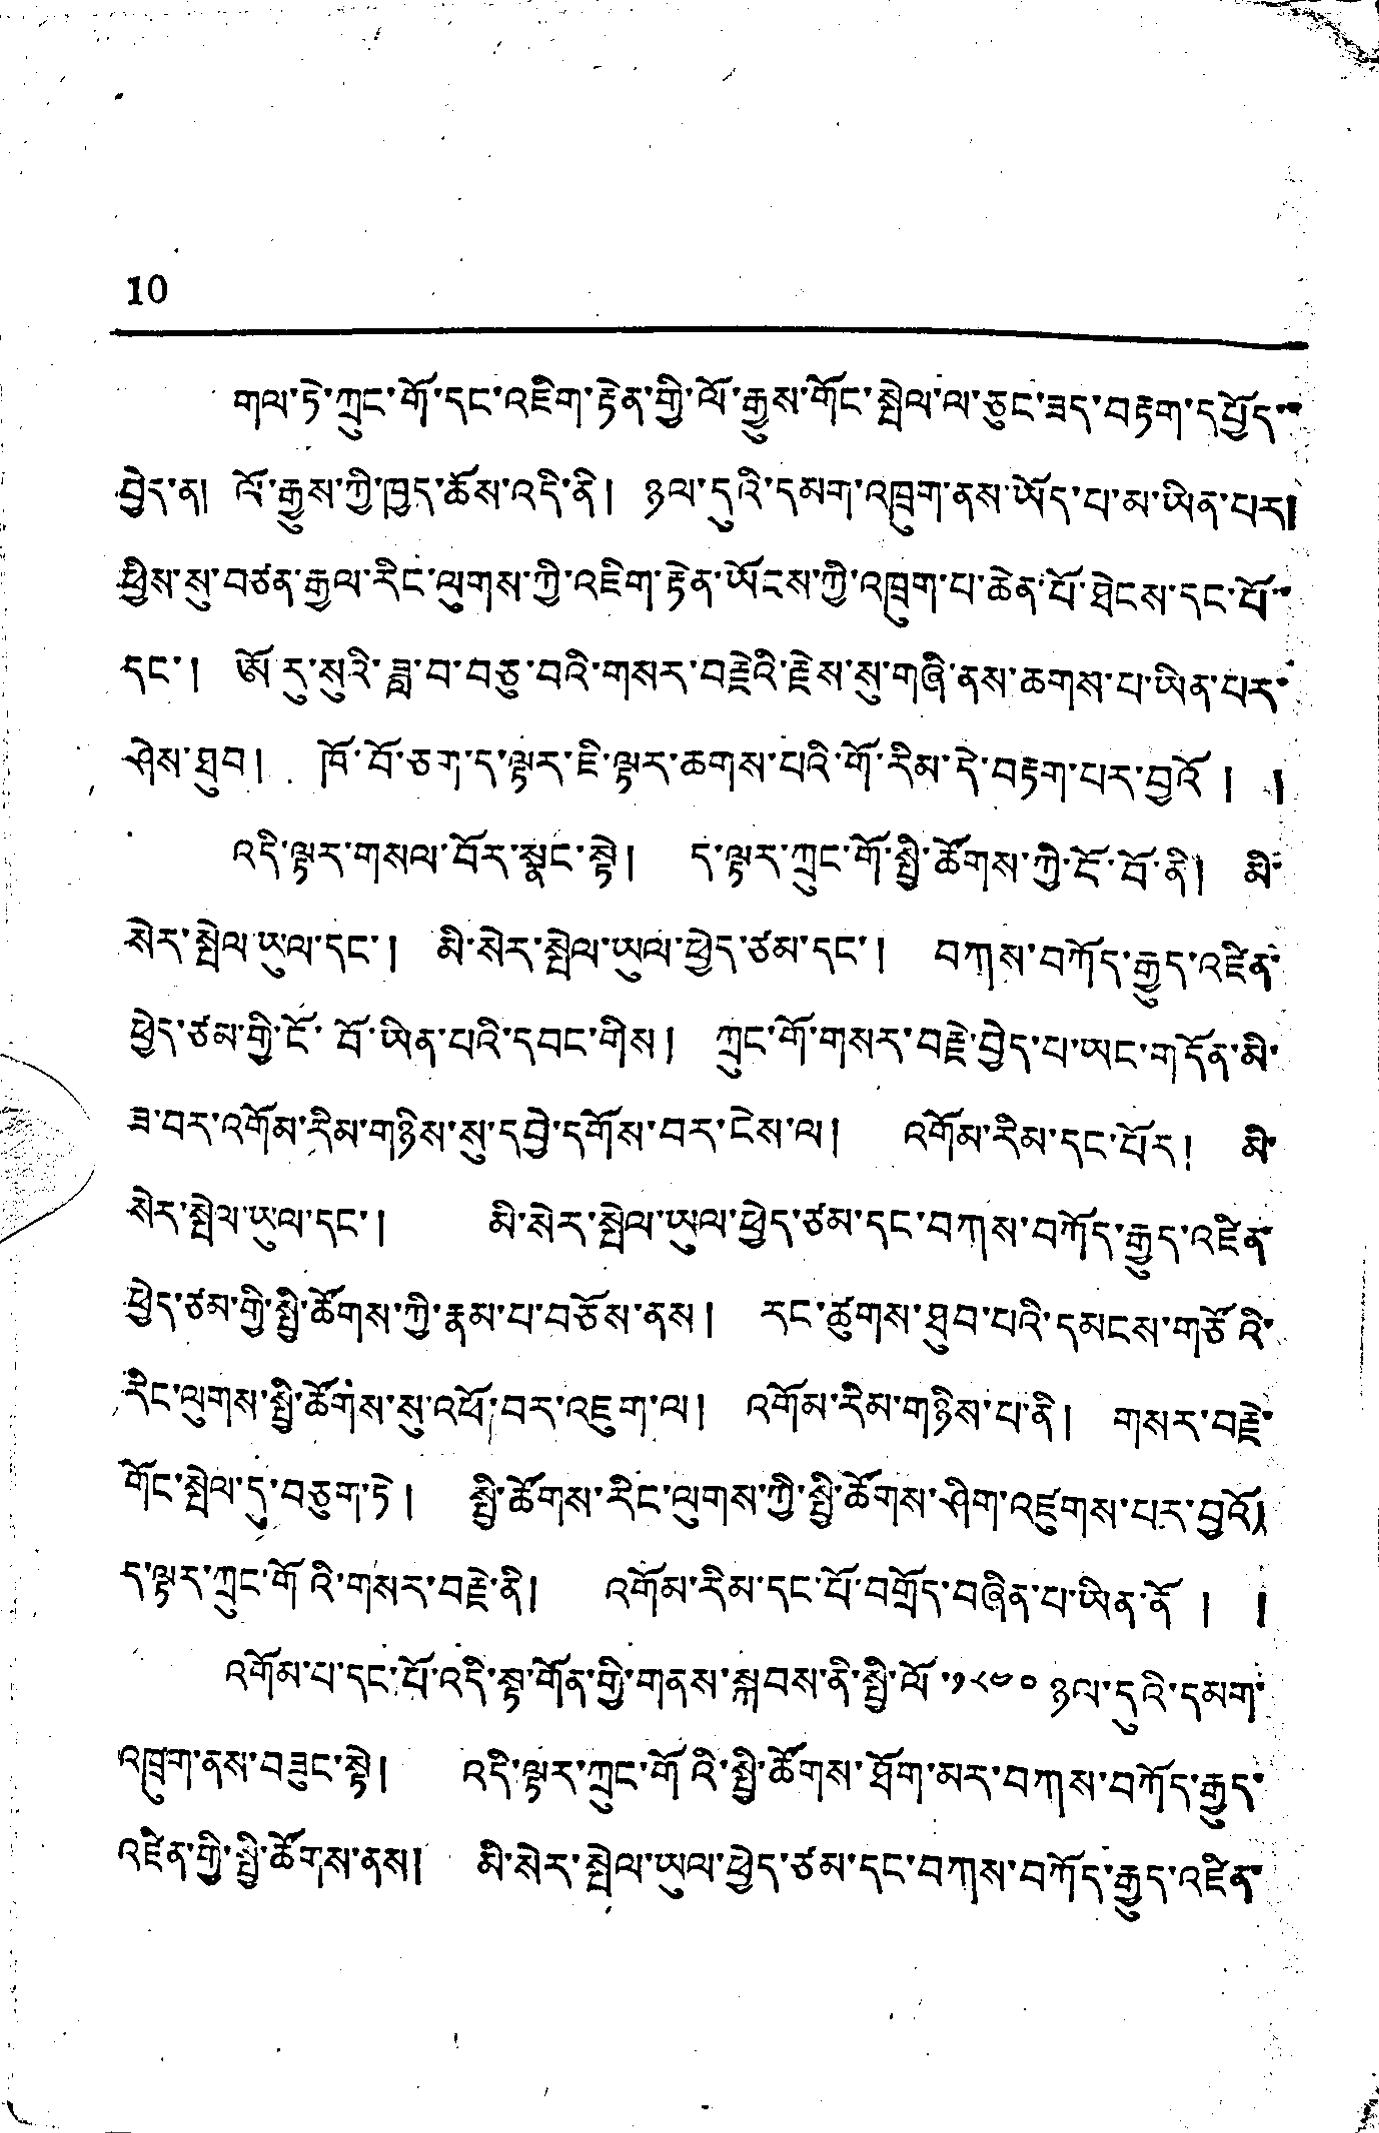10
གལ་ཏེ་ཀྲུང་གོ་དང་འཇིག་རྟེན་གྱི་ལོ་རྒྱུས་གོང་སྤེལ་ལ་ཅུང་ཟད་བརྟག་དཔྱོད་་་
བྱེད་ན། ལོ་རྒྱུས་ཀྱི་ཁྱད་ཆོས་འདི་ནི། ཉལ་དུའི་དམག་འཁྲུག་ནས་ཡོད་པ་མ་ཡིན་པར།
ཕྱིས་སུ་བཙན་རྒྱལ་རིང་ལུགས་ཀྱི་འཇིག་རྟེན་ཡོངས་ཀྱི་འཁྲུག་པ་ཆེན་པོ་ཐེངས་དང་པོ་
དང་། ཡོ་རུ་སུའི་ཟླ་བ་བཅུ་བའི་གསར་བརྗེའི་རྗེས་སུ་གཞི་ནས་ཆགས་པ་ཡིན་པར་
ཤེས་ཐུབ། ཁོ་བོ་ཅག་ད་སྟར་ཇི་ལྟར་ཆགས་པའི་གོ་རིམ་དེ་བརྟག་པར་བྱའོ། །
འདི་ལྟར་གསལ་བོར་སྣང་སྟེ། ད་ལྟར་ཀྲུང་གོ་སྤྱི་ཚོགས་ཀྱི་ངོ་བོ་ནི། མི་
སེར་སྤེལ་ཡུལ་དང་། མི་སེར་སྤེལ་ཡུལ་ཕྱེད་ཙམ་དང་། བཀས་བཀོད་རྒྱུད་འཛིན་
ཕྱེད་ཙམ་གྱི་ངོ་བོ་ཡིན་པའི་དབང་གིས། ཀྲུང་གོ་གསར་བརྗེ་བྱེད་པ་ཡང་གདོན་མི་
ཟ་བར་འགོམ་རིམ་གཉིས་སུ་དབྱེ་དགོས་བར་ངེས་ལ། འགོམ་རིམ་དང་པོར། མི་
སེར་སྤེལ་ཡུལ་དང་། མི་སེར་སྤེལ་ཡུལ་ཕྱེད་ཙམ་དང་བཀས་བཀོད་རྒྱུད་འཛིན་
ཕྱེད་ཙམ་གྱི་སྤྱི་ཚོགས་ཀྱི་རྣམ་པ་བཅོས་ནས། རང་ཚུགས་ཐུབ་པའི་དམངས་གཙོའི་
རིང་ལུགས་སྤྱི་ཚོགས་སུ་འཕོ་བར་འཇུག་ལ། འགོམ་རིམ་གཉིས་པ་ནི། གསར་བརྗེ་
གོང་སྤེལ་དུ་བཅུག་ཏེ། སྤྱི་ཚོགས་རིང་ལུགས་ཀྱི་སྤྱི་ཚོགས་ཤིག་འཛུགས་པར་བྱའོ།
ད་ལྟར་ཀྲུང་གོའི་གསར་བརྗེ་ནི། འགོམ་རིམ་དང་པོ་བགྲོད་བཞིན་པ་ཡིན་ནོ། །
འགོམ་པ་དང་པོ་འདི་སྟ་གོན་གྱི་གནས་སྐབས་ནི་སྤྱི་ལོ་༡༨༤༠ ཉལ་དུའི་དམག་
འཁྲུག་ནས་བཟུང་སྟེ། འདི་ལྟར་ཀྲུང་གོའི་སྤྱི་ཚོགས་ཐོག་མར་བཀས་བཀོད་རྒྱུད་
འཛིན་གྱི་སྤྱི་ཚོགས་ནས། མི་སེར་སྤེལ་ཡུལ་ཕྱེད་ཙམ་དང་བཀས་བཀོད་རྒྱུད་འཛིན་
